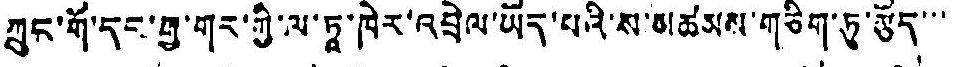ཀྲུང་གོ་དང་རྒྱ་གར་གྱི་ལ་ཏཱ་ཁེར་འབྲེལ་ཡོད་པའི་ས་མཚམས་གཅིག་ཏུ་རྩོད་་་་
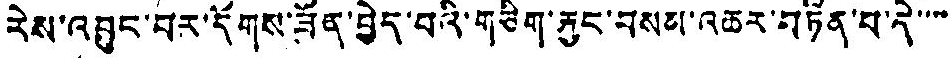རེས་འབྱུང་བར་དོགས་ཟོན་བྱེད་པའི་གཅིག་ཅུང་བསམ་འཆར་བཏོན་པ་དེ་་་་་
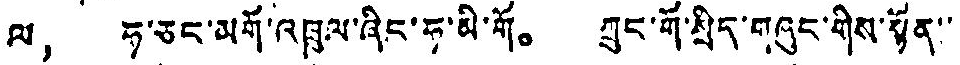ལ， ཧ་ཅང་མགོ་འཁྲུལ་ཞིང་ཧ་མི་གོ。 ཀྲུང་གོ་སྲིད་གཞུང་གིས་སྟོན་་
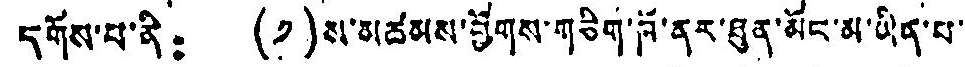དགོས་པ་ནི： (༡)ས་མཚམས་ཕྱོགས་གཅིག་ཁོ་ནར་ཐུན་མོང་མ་ཡིན་པ་
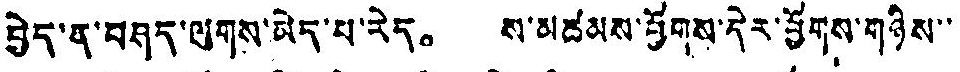བྱེད་ན་བཤད་ལུགས་མེད་པ་རེད。 ས་མཚམས་ཕྱོགས་དེར་ཕྱོགས་གཉིས་་
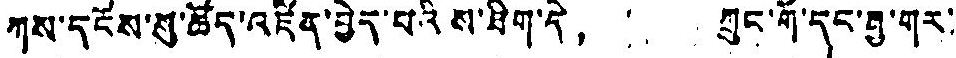ཀས་དངོས་སུ་ཚོད་འཛིན་བྱེད་པའི ས་ཐིག་དེ， ཀྲུང་གོ་དང་བྱ་གར་
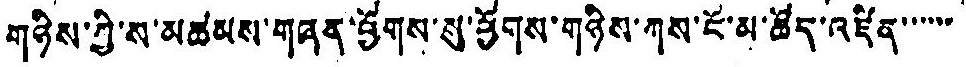གཉིས་ཀྱི་ས་མཚམས་གཞན་ཕྱོགས་སུ་ཕྱོགས་གཉིས་ཀས་ངོ་མ་ཚོད་འཛིན་་་་་་
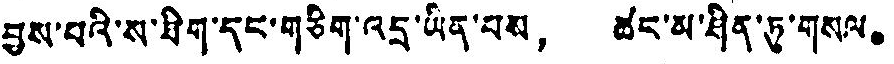བྱས་པའི་ས་ཐིག་དང་གཅིག་འདྲ་ཡིན་པས， ཚང་མ་ཤིན་ཏུ་གསལ。
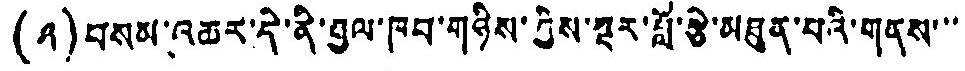(༢)བསམ་འཆར་དེ་ནི་རྒྱལ་ཁབ་གཉིས་ཀྱིས་ཐྔར་བློ་རྩེ་མཐུན་པའི་གནས་་་
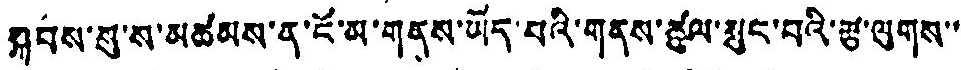སྐབས་སུ་ས་མཚམས་ན་ངོ་མ་གནས་ཡོད་པའི་གནས་ཚུལ་སྲུང་བའི་རྩ་ལུགས་་
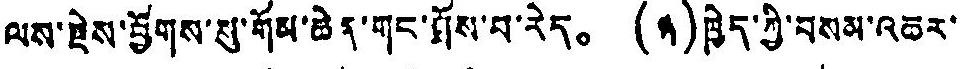ལས་རྗེས་ཕྱོགས་སུ་གོམ་ཆེན་གང་ཐོས་པ་རེད。 (༣) ཁྱེད་ཀྱི་བསམ་འཆར་
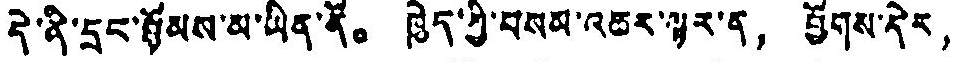དེ་ནི་དྲང་སྡོམས་མ་ཡིན་ནོ。 ཁྱེད་ཀྱི་བསམ་འཆར་ལྟར་ན， ཕྱོགས་དེར，
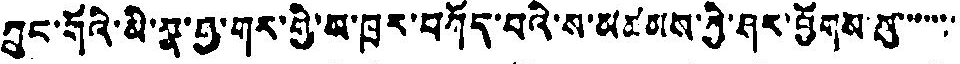ཀྲུང་གོའི་མི་སྣ་བྱ་གར་གྱི་མ་ཁུར་བཀོད་པའི་ས་མཚམས་ཀྱེ་ཤར་ཕྱོགས་སུ་་་་་་་་
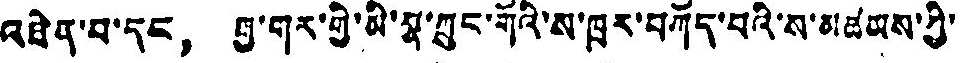འཐེན་པ་དང， ཁྱུ་གར་གྱི་མི་སྣ་ཀྲུང་གོའི་ས་ཁུར་བཀོད་པའི་ས་མཚམས་ཀྱི་
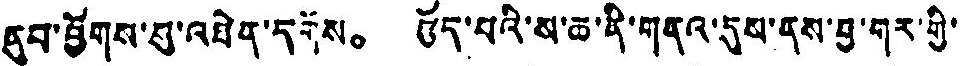ནུབ་ཕྱོགས་སུ་འཐེན་དགོས。 ཅོད་པའི་ས་ཆ་ནི་གནའ་དུས་ནས་བྱ་གར་གྱི་
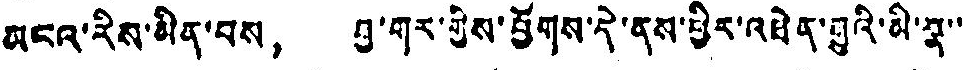མངའ་རིས་མིན་པས， བྱ་གར་གྱིས་ཕྱོགས་དེ་ནས་ཕྱིར་འཐེན་ཟླུའི་མི་སྣ་་
